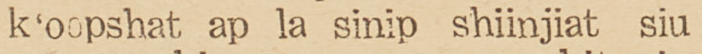k'oopshat ap la sinip shiinjiat siu
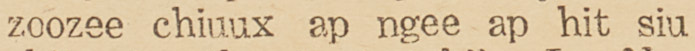zoozee chiuux ap ngee ap hit siu
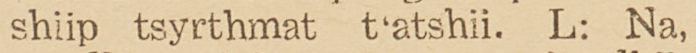shiip tsyrthmat t'atshii. L: Na,
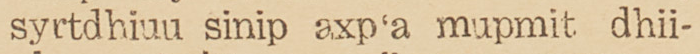syrtdhiuu sinip axp'a mupmit dhii-
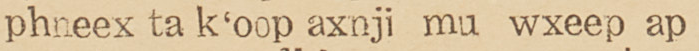phneex ta k'oop axnji mu wxeep ap
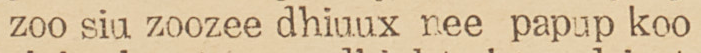zoo siu zoozee dhiuux nee papup koo
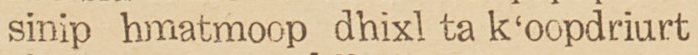sinip hmatmoop dhixl ta k'oopdriurt
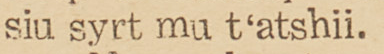siu syrt mu t'atshii.
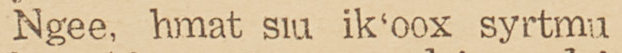Ngee, hmat siu ik'oox syrtmu
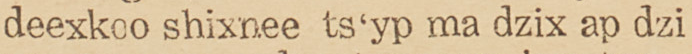deexkoo shixnee ts'yp ma dzix ap dzi
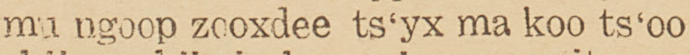mu ngoop zooxdee ts'yx ma koo ts'oo
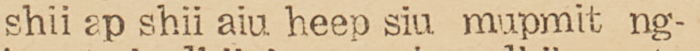shii ap shii aiu heep siu mupmit ng-
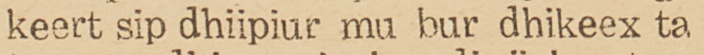keert sip dhiipiur mu bur dhikeex ta
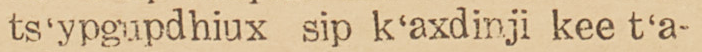ts'ypgupdhiux sip k'axdinji kee t'a-
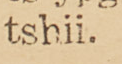tshii.
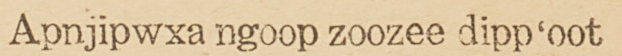Apnjipwxa ngoop zoozee dipp'oot
